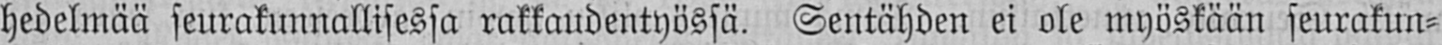hedelmää seurakunnallisessa rakkaudentyössä. Sentähden ei ole myöskään seurakun-
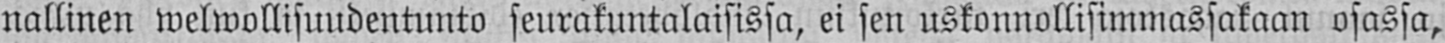nallinen welwollisuudentunto seurakuntalaisissa, ei sen uskonnollisimmassakaan osassa,
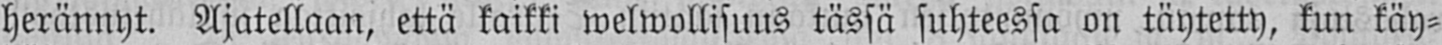herännyt. Ajatellaan, että kaikki welwollisuus tässä suhteessa on täytetty, kun käy-
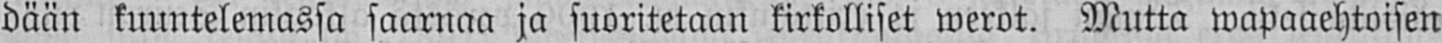dään kuuntelemassa saarnaa ja suoritetaan kirkolliset werot. Mutta wapaaehtoisen
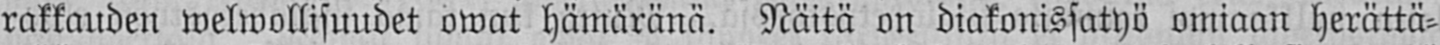rakkauden welwollisuudet owat hämäränä. Näitä on diakonissatyö omiaan herättä-
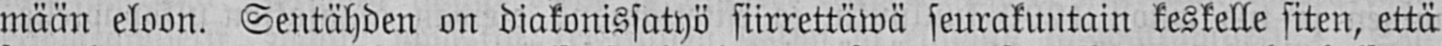mään eloon. Sentähden on diakonissatyö siirrettäwä seurakuntain keskelle siten, että
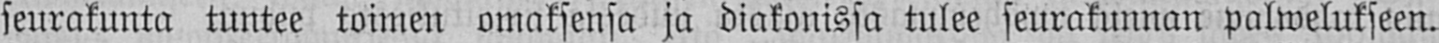seurakunta tuntee toimen omaksensa ja diakonissa tulee seurakunnan palwelukseen.
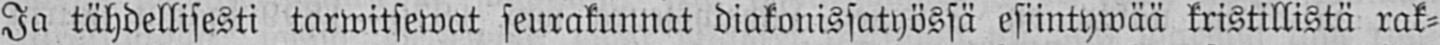Ja tähdellisesti tarwitsewat seurakunnat diakonissatyössä esiintywää kristillistä rak-
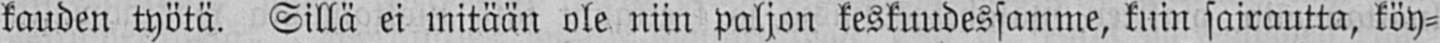kauden työtä. Sillä ei mitään ole niin paljon keskuudessamme, kuin sairautta, köy-
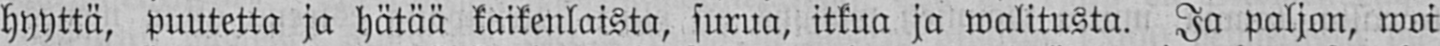hyyttä, puutetta ja hätää kaikenlaista, surua, itkua ja walitusta. Ja paljon, woi
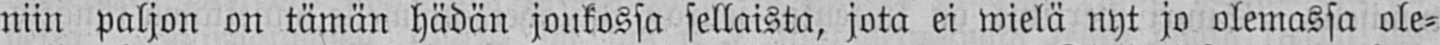niin paljon on tämän hädän joukossa sellaista, jota ei wielä nyt jo olemassa ole-
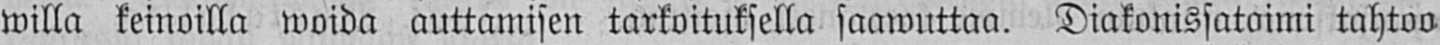willa keinoilla woida auttamisen tarkoituksella saawuttaa. Diakoinssataimi tahtoo
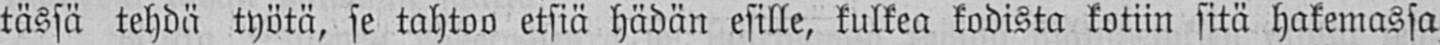tässä tehdä työtä, se tahtoo etsiä hädän esille, kulkea kodista kotiin sitä hakemassa
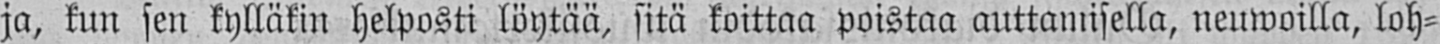ja, kun sen kylläkin helposti löytää, sitä koittaa poistaa auttamisella, neuwoilla, loh-
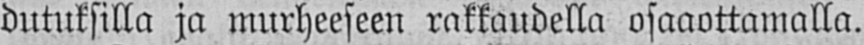dutuksilla ja murheeseen rakkaudella osaaottamalla.
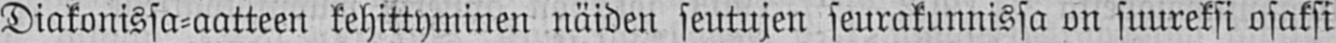Diakonissa-aatteen kehittyminen näiden seutujen seurakunnissa on suureksi osaksi
